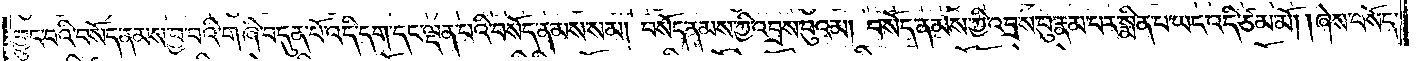བྱུང་བའི་བསོད་ནམས་བྱ་བའི་གཞི་བདུན་པོ་འདི་དག་དང་ལྡན་པའི་བསོད་ནམས་སམ། བསོད་ནམས་ཀྱི་འབྲས་བུའམ། བསོད་ནམས་ཀྱི་འབྲས་བུ་རྣམ་པར་སྨིན་པ་ཡང་འདི་ཙམ་མོ། །ཞེས་བསོད་
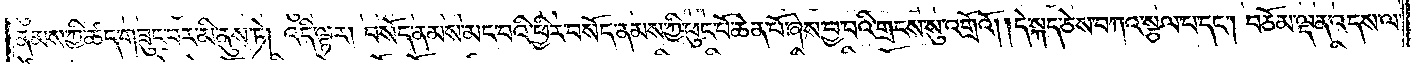ནམས་ཀྱི་ཚད་གཟུང་བར་མི་ནུས་ཏེ། འདི་ལྟར། བསོད་ནམས་མང་བའི་ཕྱིར་བསོད་ནམས་ཀྱི་ཕུང་པོ་ཆེན་པོ་ཞེས་བྱ་བའི་གྲངས་སུ་འགྲོའོ། །དེ་སྐད་ཅེས་བཀའ་སྩལ་པ་དང༌། བཅོམ་ལྡན་འདས་ལ་
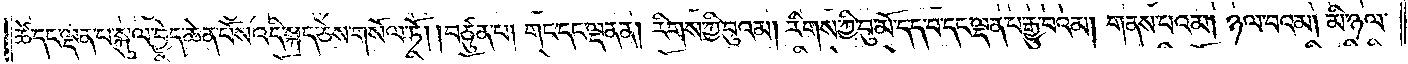ཚེ་དང་ལྡན་པ་སྐུལ་བྱེད་ཆེན་པོས་འདི་སྐད་ཅེས་གསོལ་ཏོ། །བཙུན་པ། གང་དང་ལྡན་ན། རིགས་ཀྱི་བུའམ། རིགས་ཀྱི་བུ་མོ་དད་པ་དང་ལྡན་པ་རྒྱུ་བའམ། གནས་པའམ། ཉལ་བའམ། མི་ཉལ་
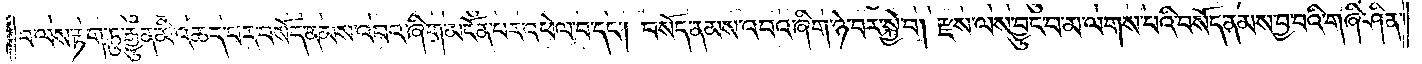བ་ལས་རྟག་ཏུ་རྒྱུན་མི་འཆད་པར་བསོད་ནམས་འབའ་ཞིག་མངོན་པར་འཕེལ་བ་དང༌། བསོད་ནམས་འབའ་ཞིག་ཉེ་བར་སྐྱེ་བ། རྫས་ལས་བྱུང་བ་མ་ལགས་པའི་བསོད་ནམས་བྱ་བའི་གཞི་ཤིན་
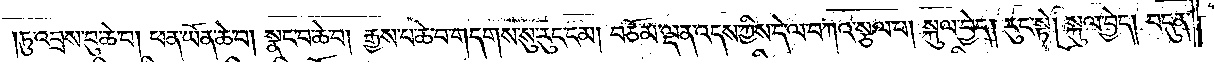།ཏུ་འབྲས་བུ་ཆེ་བ། ཕན་ཡོན་ཆེ་བ། སྣང་བ་ཆེ་བ། རྒྱས་པ་ཆེ་བ་གདགས་སུ་རུང་ངམ། བཅོམ་ལྡན་འདས་ཀྱིས་དེ་ལ་བཀའ་སྩལ་པ། སྐུལ་བྱེད། རུང་སྟེ། སྐུལ་བྱེད། བདུན་
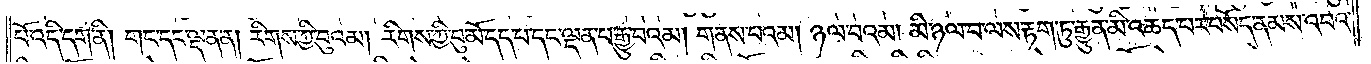པོ་འདི་དག་ནི། གང་དང་ལྡན་ན། རིགས་ཀྱི་བུའམ། རིགས་ཀྱི་བུ་མོ་དད་པ་དང་ལྡན་པ་རྒྱུ་བའམ། གནས་པའམ། ཉལ་བའམ། མི་ཉལ་བ་ལས་རྟག་ཏུ་རྒྱུན་མི་འཆད་པར་བསོད་ནམས་འབའ་
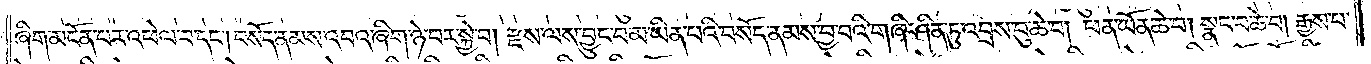ཞིག་མངོན་པར་འཕེལ་བ་དང༌། བསོད་ནམས་འབའ་ཞིག་ཉེ་བར་སྐྱེ་བ། རྫས་ལས་བྱུང་བ་མ་ཡིན་པའི་བསོད་ནམས་བྱ་བའི་གཞི་ཤིན་ཏུ་འབྲས་བུ་ཆེ་བ། ཕན་ཡོན་ཆེ་བ། སྣང་བ་ཆེ་བ། རྒྱས་པ་
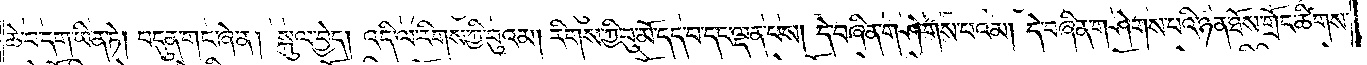ཆེ་བ་དག་ཡིན་ཏེ། བདུན་གང་ཞེ་ན། སྐུལ་བྱེད། འདི་ལ་རིགས་ཀྱི་བུའམ། རིགས་ཀྱི་བུ་མོ་དད་པ་དང་ལྡན་པས། དེ་བཞིན་གཤེགས་པའམ། དེ་བཞིན་གཤེགས་པའི་ཉན་ཐོས་གྲོང་ཚིགས་
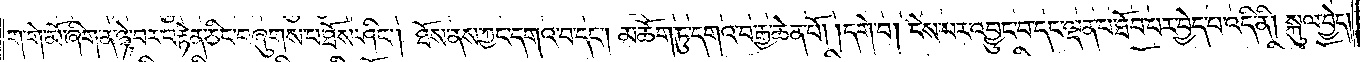ག་གེ་མོ་ཞིག་ན་ཉེ་བར་བརྟེན་ཅིང་བཞུགས་པ་ཐོས་ཤིང༌། ཐོས་ནས་ཀྱང་དགའ་བ་དང༌། མཆོག་ཏུ་དགའ་བ་རྒྱ་ཆེན་པོ། །དགེ་བ། ངེས་པར་འབྱུང་བ་དང་ལྡན་པ་ཐོབ་པར་བྱེད་པ་འདི་ནི། སྐུལ་བྱེད།
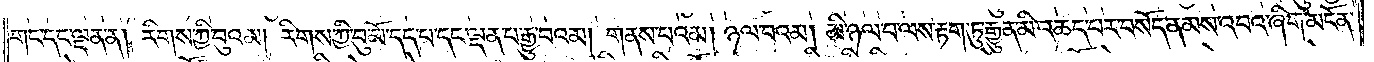གང་དང་ལྡན་ན། རིགས་ཀྱི་བུའམ། རིགས་ཀྱི་བུ་མོ་དད་པ་དང་ལྡན་པ་རྒྱུ་བའམ། གནས་པའམ། ཉལ་བའམ། མི་ཉལ་བ་ལས་རྟག་ཏུ་རྒྱུན་མི་འཆད་པར་བསོད་ནམས་འབའ་ཞིག་མངོན་
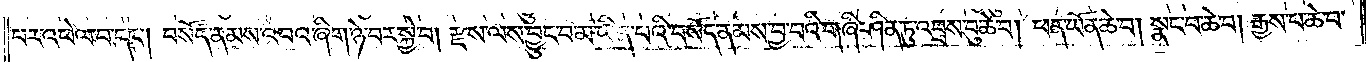པར་འཕེལ་བ་དང༌། བསོད་ནམས་འབའ་ཞིག་ཉེ་བར་སྐྱེ་བ། རྫས་ལས་བྱུང་བ་མ་ཡིན་པའི་བསོད་ནམས་བྱ་བའི་གཞི་ཤིན་ཏུ་འབྲས་བུ་ཆེ་བ། ཕན་ཡོན་ཆེ་བ། སྣང་བ་ཆེ་བ། རྒྱས་པ་ཆེ་བ་
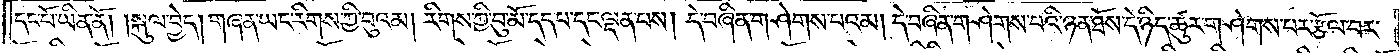དང་པོ་ཡིན་ནོ། །སྐུལ་བྱེད། གཞན་ཡང་རིགས་ཀྱི་བུའམ། རིགས་ཀྱི་བུ་མོ་དད་པ་དང་ལྡན་པས། དེ་བཞིན་གཤེགས་པའམ། དེ་བཞིན་གཤེགས་པའི་ཉན་ཐོས་དེ་ཉིད་ཚུར་གཤེགས་པར་རྩོལ་བར་
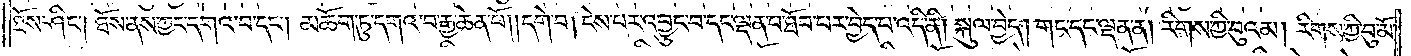ཐོས་ཤིང༌། ཐོས་ནས་ཀྱང་དགའ་བ་དང༌། མཆོག་ཏུ་དགའ་བ་རྒྱ་ཆེན་པོ། །དགེ་བ། ངེས་པར་འབྱུང་བ་དང་ལྡན་པ་ཐོབ་པར་བྱེད་པ་འདི་ནི། སྐུལ་བྱེད། གང་དང་ལྡན་ན། རིགས་ཀྱི་བུའམ། རིགས་ཀྱི་བུ་མོ་
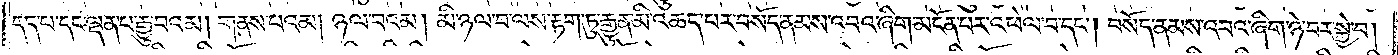དད་པ་དང་ལྡན་པ་རྒྱུ་བའམ། གནས་པའམ། ཉལ་བའམ། མི་ཉལ་བ་ལས་རྟག་ཏུ་རྒྱུན་མི་འཆད་པར་བསོད་ནམས་འབའ་ཞིག་མངོན་པར་འཕེལ་བ་དང༌། བསོད་ནམས་འབའ་ཞིག་ཉེ་བར་སྐྱེ་བ།
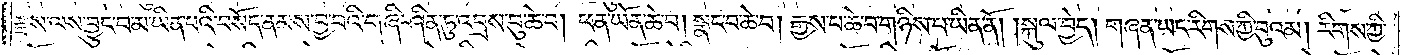རྫས་ལས་བྱུང་བ་མ་ཡིན་པའི་བསོད་ནམས་བྱ་བའི་གཞི་ཤིན་ཏུ་འབྲས་བུ་ཆེ་བ། ཕན་ཡོན་ཆེ་བ། སྣང་བ་ཆེ་བ། རྒྱས་པ་ཆེ་བ་གཉིས་པ་ཡིན་ནོ། །སྐུལ་བྱེད། གཞན་ཡང་རིགས་ཀྱི་བུའམ། རིགས་ཀྱི་
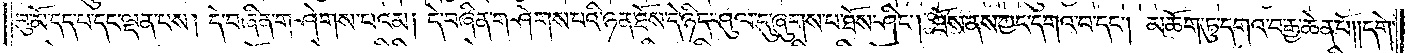བུ་མོ་དད་པ་དང་ལྡན་པས། དེ་བཞིན་གཤེགས་པའམ། དེ་བཞིན་གཤེགས་པའི་ཉན་ཐོས་དེ་ཉིད་ཤུལ་དུ་ཞུགས་པ་ཐོས་ཤིང༌། ཐོས་ནས་ཀྱང་དགའ་བ་དང༌། མཆོག་ཏུ་དགའ་བ་རྒྱ་ཆེན་པོ། །དགེ་
